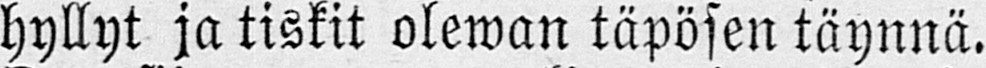hyllyt ja tiskit olewan täpösen täynnä.
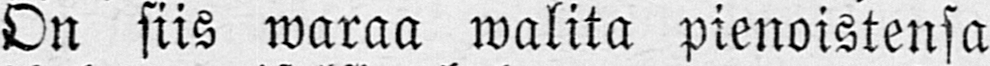On siis waraa walita pienoistensa
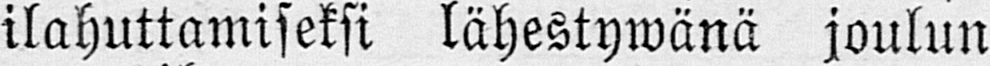ilahuttamiseksi lähestywänä joulun
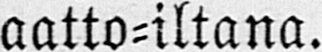aatto-iltana.
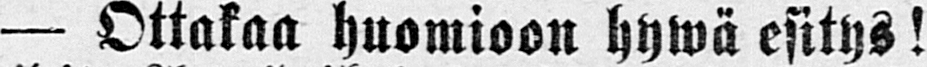— Ottakaa huomioon hywä esitys!
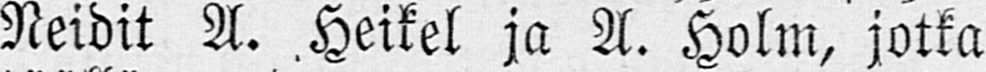Neidit A. Heikel ja A. Holm, jotka
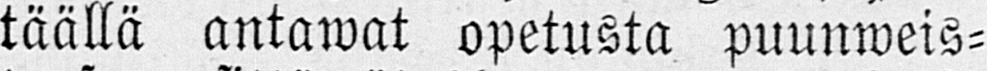täällä antawat opetusta puunweis-
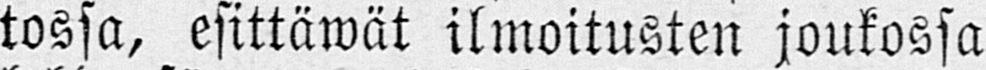tossa, esittäwät ilmoitusten joukossa
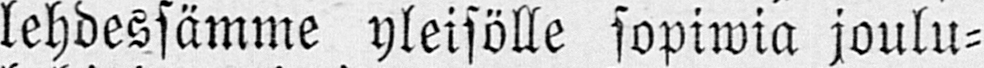tehdessämme yleisölle sopiwia joulu-
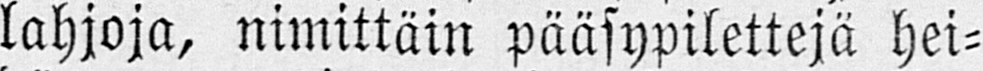lahjoja, nimittäin pääsypilettejä hei-
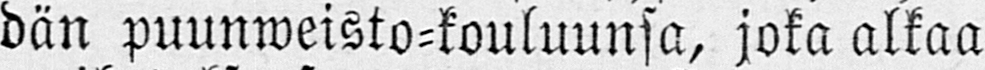dän puunweisto-kouluunsa, joka alkaa
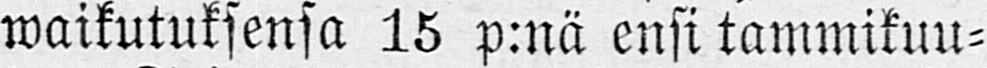waikutuksensa 15 p:nä ensi tammikuu-
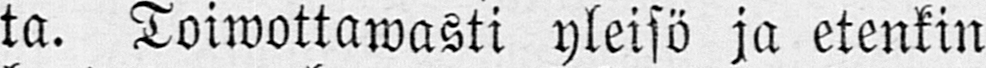ta. Toiwottawasti yleisö ja etenkin
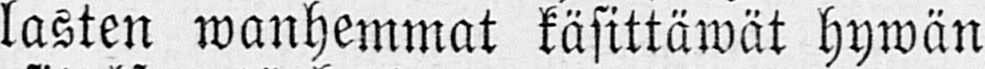lasten wanhemmat käsittäwät hywän
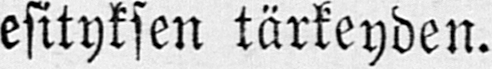esityksen tärkeyden.
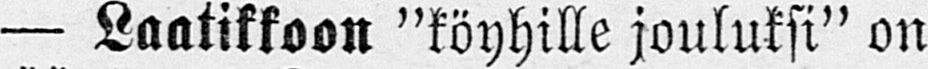— Laatikkoon "köyhille jouluksi" on
